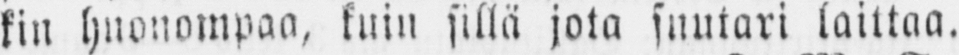kin huonompaa, kuin sillä jota suutari laittaa.
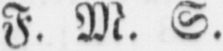F. M. S.
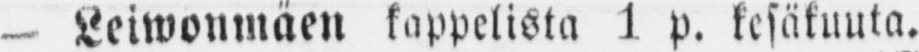— Leiwonmäen kappelista 1 p. kesäkuuta.
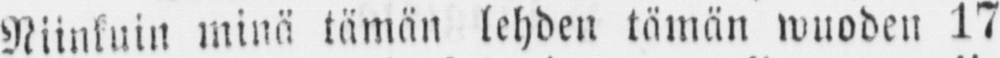Niinkuin minä tämän lehden tämän wuoden 17
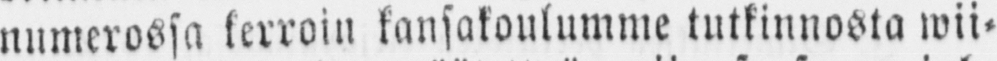numerossa kerroin kansakoulumme tutkinnosta wii-
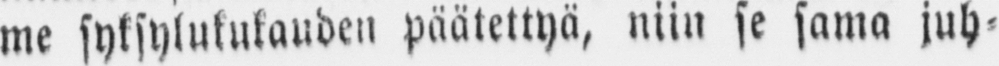me syksylukukauden päätettyä, niin se sama juh-
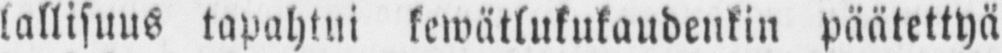lallisuus tapahtui kewätlukukaudenkin päätettyä
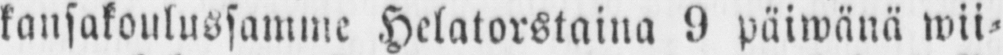kansakoulussamme Helatorstaina 9 päiwänä wii-
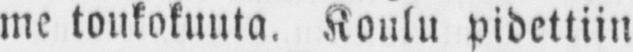me toukokuuta. Koulu pidettiin kewätlukukaudella
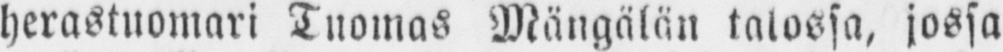herastuomari Tuomas Mängälän talossa, jossa
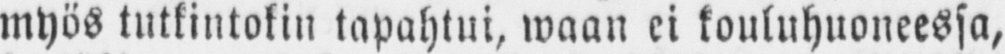myös tutkintokin tapahtui, waan ei kouluhuoneessa,
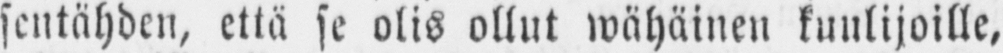sentähden, että se olis ollut wähäinen kuulijoille,
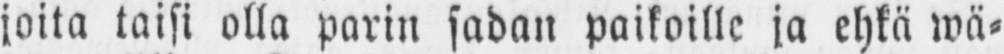joita taisi olla parin sadan paikoille ja ehkä wä-
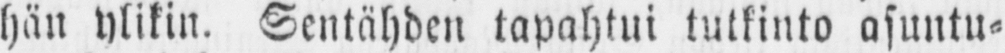hän ylikin. Sentähden tapahtui tutkinto asuntu-
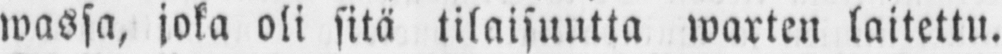wassa, joka oli sitä tilaisuutta warten laitettu.
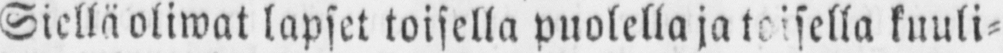Siellä oliwat lapset toisella puolella ja toisella kuuli-
